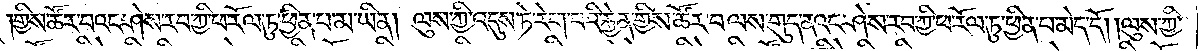གྱིས་ཚོར་བའང་ཤེས་རབ་ཀྱི་ཕ་རོལ་ཏུ་ཕྱིན་པ་མ་ཡིན། ལུས་ཀྱི་འདུས་ཏེ་རེག་པའི་རྐྱེན་གྱིས་ཚོར་བ་ལས་གུད་ནའང་ཤེས་རབ་ཀྱི་ཕ་རོལ་ཏུ་ཕྱིན་པ་མེད་དོ། །ལུས་ཀྱི་
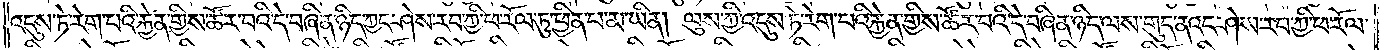འདུས་ཏེ་རེག་པའི་རྐྱེན་གྱིས་ཚོར་བའི་དེ་བཞིན་ཉིད་ཀྱང་ཤེས་རབ་ཀྱི་ཕ་རོལ་ཏུ་ཕྱིན་པ་མ་ཡིན། ལུས་ཀྱི་འདུས་ཏེ་རེག་པའི་རྐྱེན་གྱིས་ཚོར་བའི་དེ་བཞིན་ཉིད་ལས་གུད་ནའང་ཤེས་རབ་ཀྱི་ཕ་རོལ་
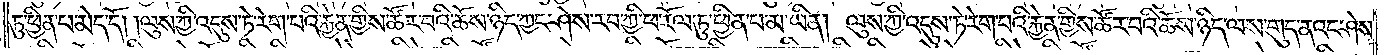ཏུ་ཕྱིན་པ་མེད་དོ། །ལུས་ཀྱི་འདུས་ཏེ་རེག་པའི་རྐྱེན་གྱིས་ཚོར་བའི་ཆོས་ཉིད་ཀྱང་ཤེས་རབ་ཀྱི་ཕ་རོལ་ཏུ་ཕྱིན་པ་མ་ཡིན། ལུས་ཀྱི་འདུས་ཏེ་རེག་པའི་རྐྱེན་གྱིས་ཚོར་བའི་ཆོས་ཉིད་ལས་གུད་ནའང་ཤེས་
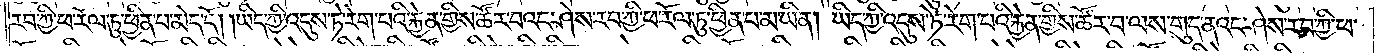རབ་ཀྱི་ཕ་རོལ་ཏུ་ཕྱིན་པ་མེད་དོ། །ཡིད་ཀྱི་འདུས་ཏེ་རེག་པའི་རྐྱེན་གྱིས་ཚོར་བའང་ཤེས་རབ་ཀྱི་ཕ་རོལ་ཏུ་ཕྱིན་པ་མ་ཡིན། ཡིད་ཀྱི་འདུས་ཏེ་རེག་པའི་རྐྱེན་གྱིས་ཚོར་བ་ལས་གུད་ནའང་ཤེས་རབ་ཀྱི་ཕ་
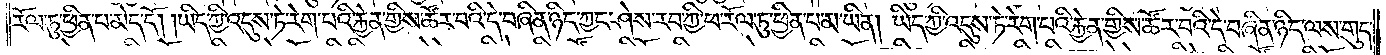རོལ་ཏུ་ཕྱིན་པ་མེད་དོ། །ཡིད་ཀྱི་འདུས་ཏེ་རེག་པའི་རྐྱེན་གྱིས་ཚོར་བའི་དེ་བཞིན་ཉིད་ཀྱང་ཤེས་རབ་ཀྱི་ཕ་རོལ་ཏུ་ཕྱིན་པ་མ་ཡིན། ཡིད་ཀྱི་འདུས་ཏེ་རེག་པའི་རྐྱེན་གྱིས་ཚོར་བའི་དེ་བཞིན་ཉིད་ལས་གུད་
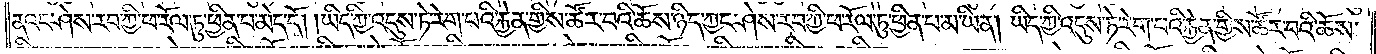ནའང་ཤེས་རབ་ཀྱི་ཕ་རོལ་ཏུ་ཕྱིན་པ་མེད་དོ། །ཡིད་ཀྱི་འདུས་ཏེ་རེག་པའི་རྐྱེན་གྱིས་ཚོར་བའི་ཆོས་ཉིད་ཀྱང་ཤེས་རབ་ཀྱི་ཕ་རོལ་ཏུ་ཕྱིན་པ་མ་ཡིན། ཡིད་ཀྱི་འདུས་ཏེ་རེག་པའི་རྐྱེན་གྱིས་ཚོར་བའི་ཆོས་
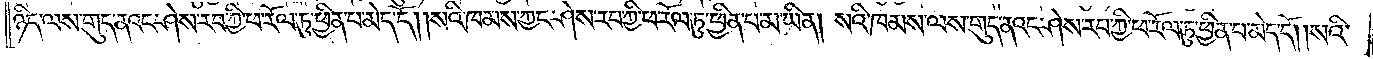ཉིད་ལས་གུད་ནའང་ཤེས་རབ་ཀྱི་ཕ་རོལ་ཏུ་ཕྱིན་པ་མེད་དོ། །སའི་ཁམས་ཀྱང་ཤེས་རབ་ཀྱི་ཕ་རོལ་ཏུ་ཕྱིན་པ་མ་ཡིན། སའི་ཁམས་ལས་གུད་ནའང་ཤེས་རབ་ཀྱི་ཕ་རོལ་ཏུ་ཕྱིན་པ་མེད་དོ། །སའི་
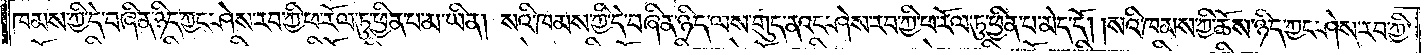ཁམས་ཀྱི་དེ་བཞིན་ཉིད་ཀྱང་ཤེས་རབ་ཀྱི་ཕ་རོལ་ཏུ་ཕྱིན་པ་མ་ཡིན། སའི་ཁམས་ཀྱི་དེ་བཞིན་ཉིད་ལས་གུད་ནའང་ཤེས་རབ་ཀྱི་ཕ་རོལ་ཏུ་ཕྱིན་པ་མེད་དོ། །སའི་ཁམས་ཀྱི་ཆོས་ཉིད་ཀྱང་ཤེས་རབ་ཀྱི་
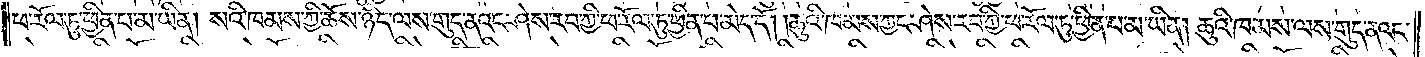ཕ་རོལ་ཏུ་ཕྱིན་པ་མ་ཡིན། སའི་ཁམས་ཀྱི་ཆོས་ཉིད་ལས་གུད་ནའང་ཤེས་རབ་ཀྱི་ཕ་རོལ་ཏུ་ཕྱིན་པ་མེད་དོ། །ཆུའི་ཁམས་ཀྱང་ཤེས་རབ་ཀྱི་ཕ་རོལ་ཏུ་ཕྱིན་པ་མ་ཡིན། ཆུའི་ཁམས་ལས་གུད་ནའང་
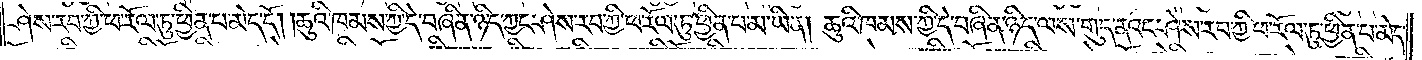ཤེས་རབ་ཀྱི་ཕ་རོལ་ཏུ་ཕྱིན་པ་མེད་དོ། །ཆུའི་ཁམས་ཀྱི་དེ་བཞིན་ཉིད་ཀྱང་ཤེས་རབ་ཀྱི་ཕ་རོལ་ཏུ་ཕྱིན་པ་མ་ཡིན། ཆུའི་ཁམས་ཀྱི་དེ་བཞིན་ཉིད་ལས་གུད་ནའང་ཤེས་རབ་ཀྱི་ཕ་རོལ་ཏུ་ཕྱིན་པ་མེད་
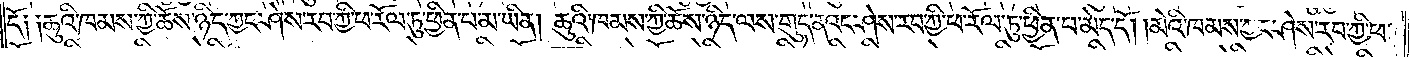དོ། །ཆུའི་ཁམས་ཀྱི་ཆོས་ཉིད་ཀྱང་ཤེས་རབ་ཀྱི་ཕ་རོལ་ཏུ་ཕྱིན་པ་མ་ཡིན། ཆུའི་ཁམས་ཀྱི་ཆོས་ཉིད་ལས་གུད་ནའང་ཤེས་རབ་ཀྱི་ཕ་རོལ་ཏུ་ཕྱིན་པ་མེད་དོ། །མེའི་ཁམས་ཀྱང་ཤེས་རབ་ཀྱི་ཕ་
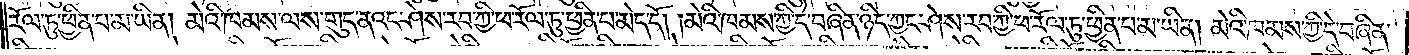རོལ་ཏུ་ཕྱིན་པ་མ་ཡིན། མེའི་ཁམས་ལས་གུད་ནའང་ཤེས་རབ་ཀྱི་ཕ་རོལ་ཏུ་ཕྱིན་པ་མེད་དོ། །མེའི་ཁམས་ཀྱི་དེ་བཞིན་ཉིད་ཀྱང་ཤེས་རབ་ཀྱི་ཕ་རོལ་ཏུ་ཕྱིན་པ་མ་ཡིན། མེའི་ཁམས་ཀྱི་དེ་བཞིན་
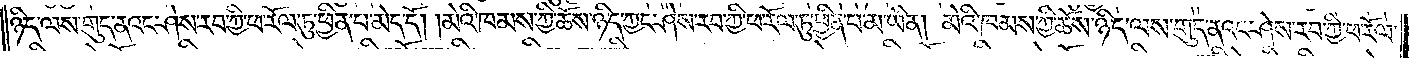ཉིད་ལས་གུད་ནའང་ཤེས་རབ་ཀྱི་ཕ་རོལ་ཏུ་ཕྱིན་པ་མེད་དོ། །མེའི་ཁམས་ཀྱི་ཆོས་ཉིད་ཀྱང་ཤེས་རབ་ཀྱི་ཕ་རོལ་ཏུ་ཕྱིན་པ་མ་ཡིན། མེའི་ཁམས་ཀྱི་ཆོས་ཉིད་ལས་གུད་ནའང་ཤེས་རབ་ཀྱི་ཕ་རོལ་
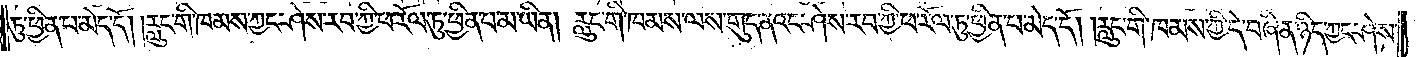ཏུ་ཕྱིན་པ་མེད་དོ། །རླུང་གི་ཁམས་ཀྱང་ཤེས་རབ་ཀྱི་ཕ་རོལ་ཏུ་ཕྱིན་པ་མ་ཡིན། རླུང་གི་ཁམས་ལས་གུད་ནའང་ཤེས་རབ་ཀྱི་ཕ་རོལ་ཏུ་ཕྱིན་པ་མེད་དོ། །རླུང་གི་ཁམས་ཀྱི་དེ་བཞིན་ཉིད་ཀྱང་ཤེས་
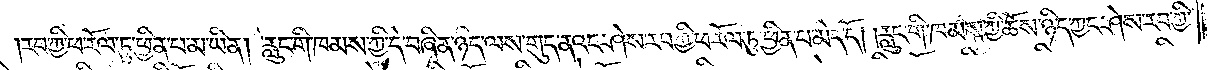རབ་ཀྱི་ཕ་རོལ་ཏུ་ཕྱིན་པ་མ་ཡིན། རླུང་གི་ཁམས་ཀྱི་དེ་བཞིན་ཉིད་ལས་གུད་ནའང་ཤེས་རབ་ཀྱི་ཕ་རོལ་ཏུ་ཕྱིན་པ་མེད་དོ། །རླུང་གི་ཁམས་ཀྱི་ཆོས་ཉིད་ཀྱང་ཤེས་རབ་ཀྱི་
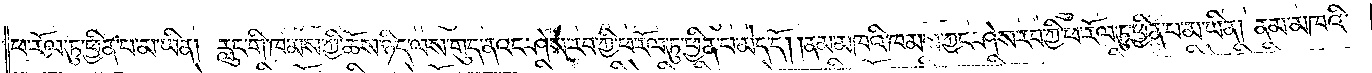ཕ་རོལ་ཏུ་ཕྱིན་པ་མ་ཡིན། རླུང་གི་ཁམས་ཀྱི་ཆོས་ཉིད་ལས་གུད་ནའང་ཤེས་རབ་ཀྱི་ཕ་རོལ་ཏུ་ཕྱིན་པ་མེད་དོ། །ནམ་མཁའི་ཁམས་ཀྱང་ཤེས་རབ་ཀྱི་ཕ་རོལ་ཏུ་ཕྱིན་པ་མ་ཡིན། ནམ་མཁའི་
